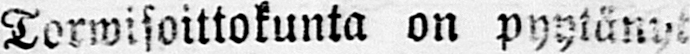Torwisoittokunta on pyytänyt
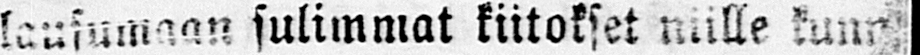lausumaan sulimmat kiitokset niille kuun
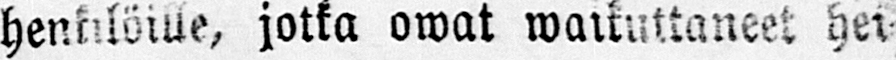henkilöille, jotka owat waikuttaneet hei-
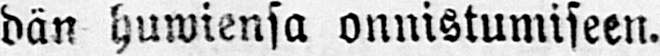dän huwiensa onnistumiseen.
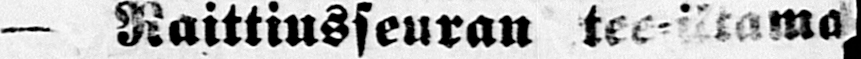— Raittiusseuran tee-iltama
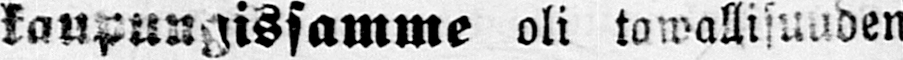kaupungissamme oli tawallisuuden
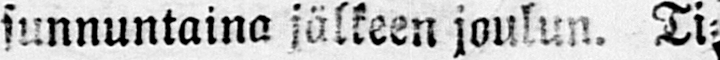mukaan sunnuntaina jälkeen joulun. Ti-
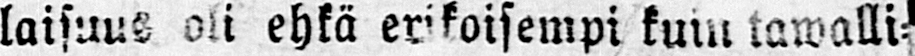laisuus oli ehkä erikoisempi kuin tawalli-
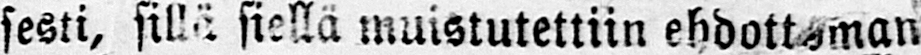sesti, sillä siellä muistutettiin ehdottaman
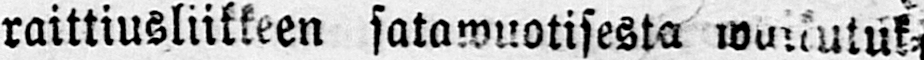raittiusliikkeen satawuotisesta wasiutuk-
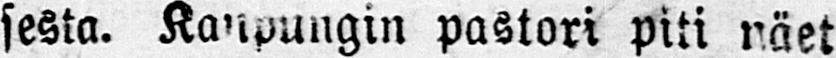sesta. Kaupungin pastori piti näet esi-
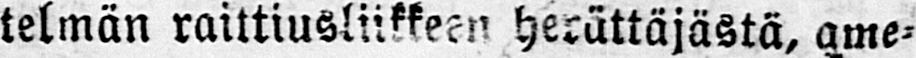telmän raittiusliikkeen herättäjästä, ame-
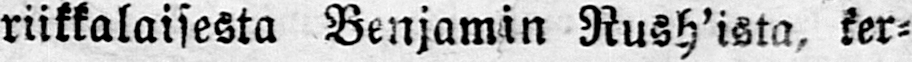riikkalaisesta Benjamin Rush'ista, ker-
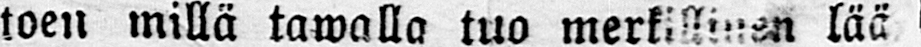toen millä tawalla tuo merkillinen lää
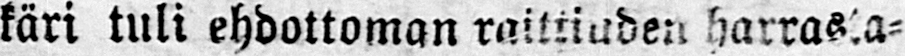käri tuli ehdottoman raittiuden harrasta-
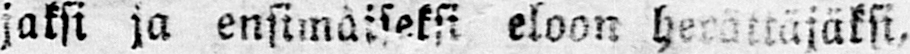jaksi ja ensimäiseksi eloon her ä ttäj ä ksi,
